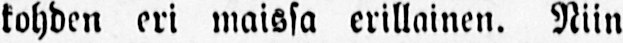kohden eri maissa erillainen. Niin
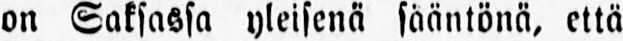on Saksassa yleisenä sääntönä, että
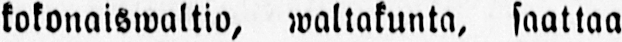kokonaiswaltia, waltakunta, saattaa
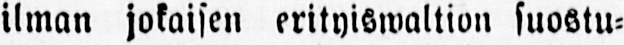ilman jokaisen erityiswaltion suostu-
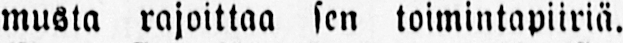musta rajoittaa sen toimintapiiriä.
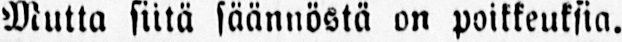Mutta siitä säännöstä on poikkeuksia.
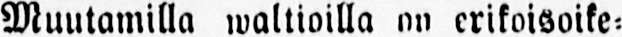Muutamilla waltioilla on erikoisoike-
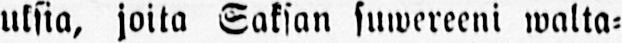uksia, joita Saksan suwereeni walta-
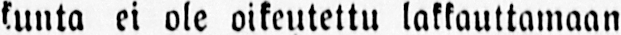kunta ei ole oikeutettu lakkauttamaan
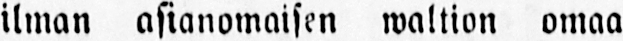ilman asianomaisen waltion omaa
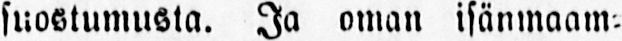suostumusta. Ja oman isänmaam-
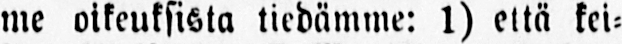me oikeuksista tiedämme: 1) että kei-
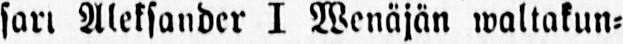sari Aleksander I Wenäjän waltakun-
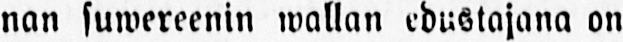nan suwereenin wallan edustajana on
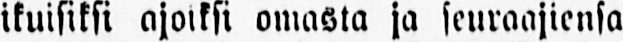ikuisiksi ajoiksi omasta ja seuraajiensa
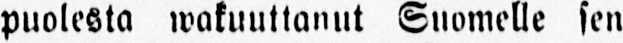puolesta wakuuttanut Suomelle sen
